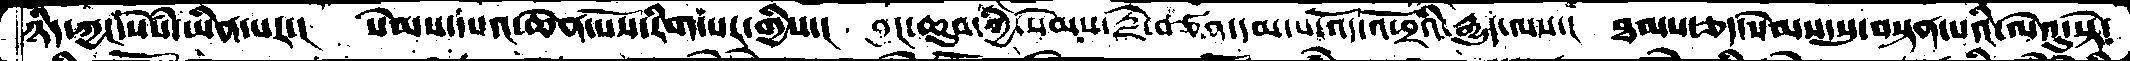ཉིད་ཀྱང་སེསཾ་ཡིན་པར་།  སེམས་དཔའ་ཆེན་པོས་རིག་པར་གྱིས་།  བྱང་ཆུབ་ཀྱི་སེམས་རྗེ་བཙན་དམ་པ་འོད་འཕྲོའི་རྒྱུད་ལས་།  ཐམས་ཅད་སེམས་སུ་བསྟན་པའི་ལེའུ་སྟེ་
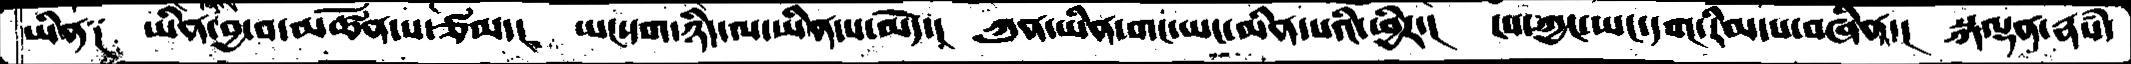ཡིན༑  ཡིན་བྱ་བ་མཚོན་པ་ཙམ་།   ཡང་དག་ཉིད་ལ་ཡིན་པ་མེད་།  ཀུན་ཡིན་གང་ཡང་མིན་པའི་ཕྱིར་།  ངས་ཀྱང་ཡང་དག་རིམ་པ་བཞིན་།  སྐལྡན་རྣཾས་
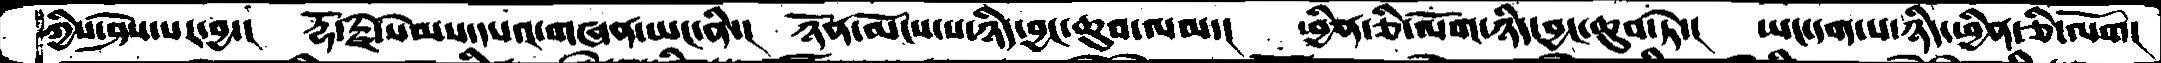ཀྱིས་ཤེས་པར་བྱ་།   རྡོ་རྗེ་སེམས་དཔའ་གཞན་ཡང་ནི་།  ཉོན་མོངས་པ་ཉིད་བྱ་ཆུབ་ལམ་།  ཕྱིན་ཅི་ལོག་ཉིད་བྱང་ཆུབ་ཏེ་།  ཡང་དག་པ་ཉིད་ཕྱིན་ཅི་ལོག་།
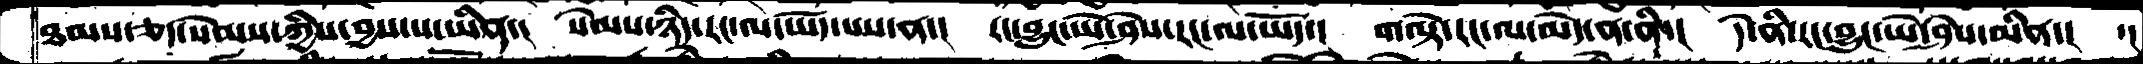ཐམས་ཅད་སེམས་ཀྱིས་བྱས་པ་ཡིན་།  སེམས་ཉིད་རང་ལ་ཡོད་པས་ན་།  རང་བྱུང་ཡེ་ཤེས་རང་ལ་ཡོད་།  གལྟེ་རང་ལ་མེད་ན་ནི་།  དེ་ནི་རང་བྱུང་ཡེེ་ཤེས་མིན་།  ་།
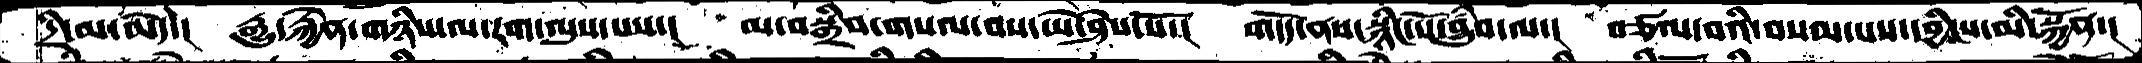དྲི་མ་མེད་།  རྒྱུ་རྐྱེན་གཉིས་ལ་རག་ལུས་པས་།  མ་བསྒྲིབ་གསལ་བས་ཡེ་ཤེས་སོ་།  གདོད་ནས་སྙིང་པོ་བྱུཾབ་ལ་།  བཙལ་བའི་བསམ་པས་དབྱིངས་མི་སྐྱོན་།
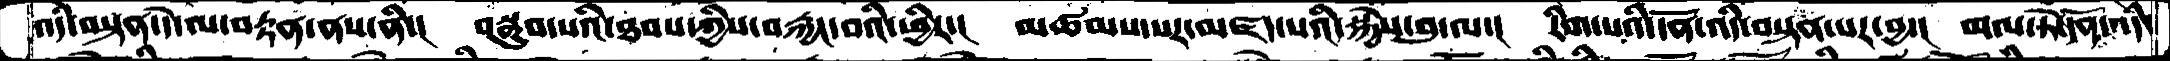འདི་བསྟན་དེ་ལ་བརྟན་ནས་ནི་།  བསྒྲུབ་པའི་ཐབ་ཀྱིས་བརྐྱང་བའི་ཕྱིར་།  མཚམས་པར་མཛད་པའི་སྐྱེས་བུ་ལ་།  རིག་པའི་དོན་འདི་བསྟན་པར་བྱ་།  གལ་ཏེ་དོན་འདི་
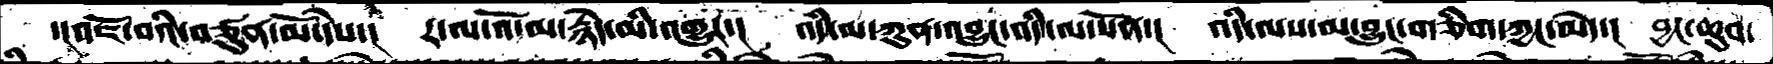་།འཇོ་བའི་བཙུན་མོ་དེས་།  ར་ལ་འོ་མ་རྙེད་མི་འགྱུར་།  འདི་ལ་ཀུན་འབྱུང་འདི་ལ་སོན་།  འདི་ལས་མ་བྱུང་གཅིག་ཀྱང་མེད་།  བྱང་ཆུབ་
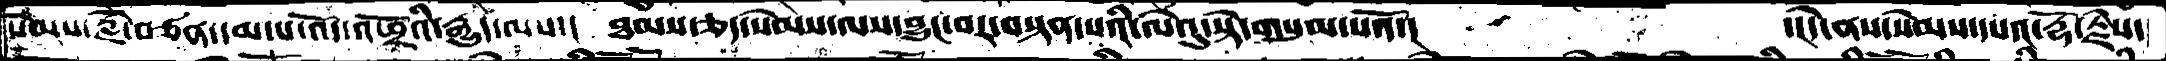སེམས་རྗེ་བཙན་དམ་པ་འོད་འཕྲོའི་རྒྱུད་ལས་།  ཐམས་ཅད་སེམས་ལས་བྱུང་བར་བསྟན་པའི་ལེའུ་སྟེ་གསུམ་པའོ་།    ་།དེ་ནས་སེམས་དཔའ་རྡོ་རྗེས་
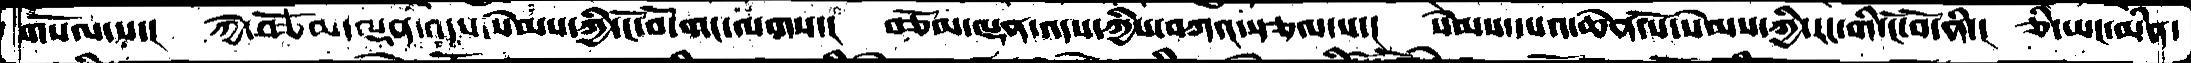གསོལ་པ་།  ཀྱེ་བཅོམ་ལྡན་འདས་སེམས་ཀྱི་ངོ་བོ་གང་ལགས་།  བཅོམ་ལྡན་འདས་ཀྱིས་བཀའ་སྩལ་པ་།  སེམས་དཔའ་ཆེན་པོ་སེམས་ཀྱི་རང་གི་ངོ་བོ་ནི་།  ཅི་ཡང་མིན་
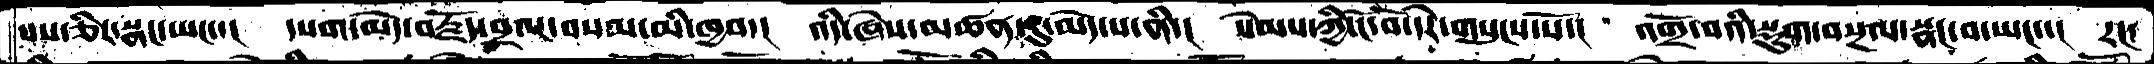པས་ཅིར་སྣང་ཡང་་།  དཔག་མེད་བརྗོད་བྲལ་བསམ་མི་ཁྱབ་།  འདི་ཞེས་མཚན་དུ་མེད་པ་ནི་།  སེམས་ཀྱི་ངོ་བོ་དེར་གསུངས་སོ་།  འགྲོ་བའི་སྡུག་བསྔལ་སྣང་བ་ཡང་་།  རང་
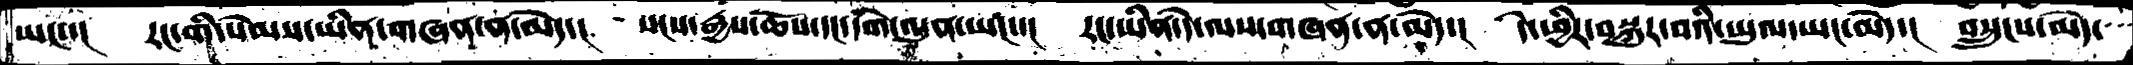ཡང་་།  རང་གི་སེམས་ཡིན་གཞན་ན་མེད་།  སངས་རྒྱས་ཆོས་དང་དགེ་འདུན་ཡང་་།  རང་ཡིན་དེ་ལས་གཞན་ན་མེད་།  དེ་ཕྱིར་བསྐུར་བའི་ཡུལ་ཡང་མེད་།  བསྲུངས་མེད་
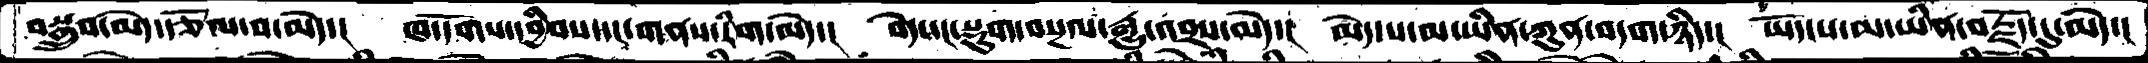བསྒྲུབ་མེད་རྩོལ་བ་མེད་།  ཁ་དོགས་དབྱིབས་དང་གནས་རིག་མེད་།  བདེ་དང་སྡུག་བསྔལ་རྒྱུ་འབྲས་མེད་།  མེད་པ་མ་ཡིན་ཀུན་བདག་ཉིད་།  ཡོད་པ་མ་ཡིན་བརྗོད་དུ་མེད་།
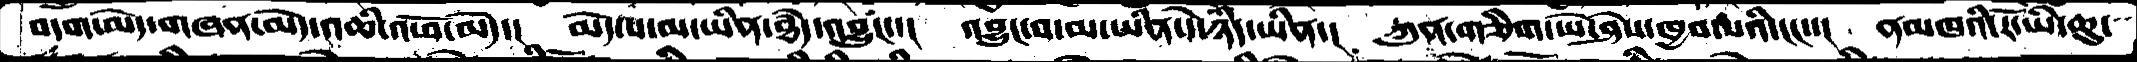བདག་མེད་གཞན་མེད་འཆི་འཕོ་མེད་།  མེད་པ་མ་ཡིན་ཐཾད་འབྱུང་་།  འབྱུང་བ་མ་ཡིན་དེ་ཉིད་ཡིན་།  ཀུན་གཅིག་ཡེ་ཤེས་ཁྱབ་པའི་ངང་་།  ནམཁའི་རོ་ཡི་ཆུ་
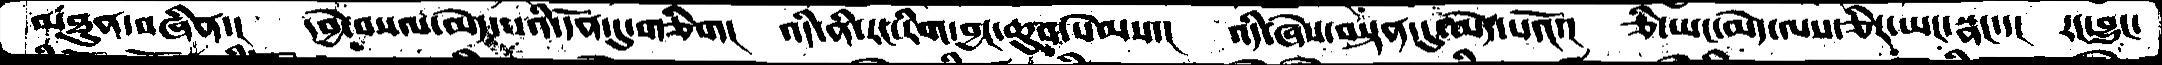མཐུན་བཞིན་།  དབྱེ་བསལ་མེད་པའི་དོན་དུ་གཅིག།  འདི་ནི་རང་རིག་བྱང་ཆུབ་སེམས་།  འདི་ཞེས་བསྟན་དུ་མེད་པའོ་།  ཅི་ཡང་མེད་ལས་ཅིར་ཡང་སྣང་་།  རང་བྱུང་
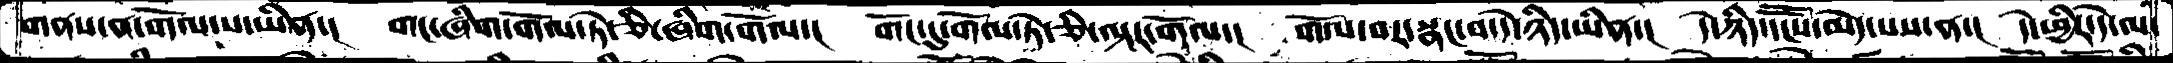གནས་ན་གོལ་ས་ཡིན་།  གང་ཞིག་གོལ་ཏེ་ཅི་ཞིག་གོལ་།  གོང་དུ་གོལ་ཏེ་ཅི་ལྟར་གོལ་།  གོལ་བར་སྣང་བ་དེ་ཉིད་ཡིན་།  དེ་ཉིད་དངོསོ་མེད་པས་ན་།  དེ་ཕྱིར་དེ་ལ་
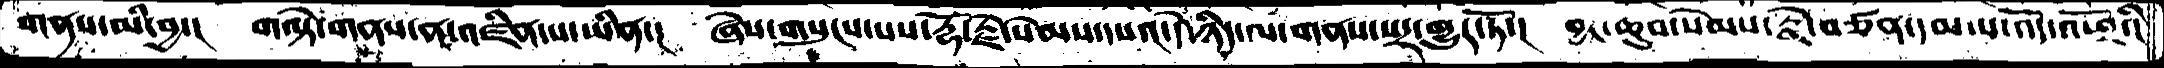གནས་མི་བྱ་།  གལྟེ་གནས་ན་འཛིན་པ་ཡིན་།  ཞེས་གསུངས་པས་རྡོ་རྗེ་སེམས་དཔའ་དེ་ཉིད་ལ་གནས་པར་གྱུར་ཏོ་།  བྱང་ཆུབ་སེམས་རྗེ་བཙན་དམ་པ་འོད་འཕྲོའི་
